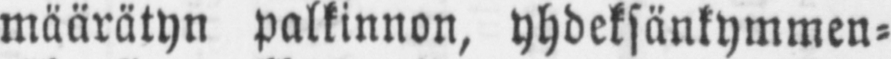määrätyn palkinnon, yhdeksänkymmen-
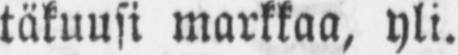täkuusi markkaa, yli.
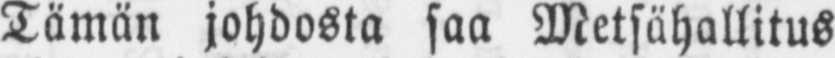Tämän johdosta saa Metsähallitus
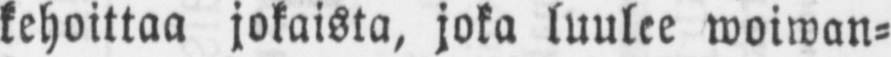kehoittaa jokaista, joka luulee woiwan-
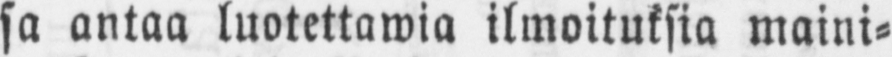sa antaa luotettawia ilmoituksia maini-
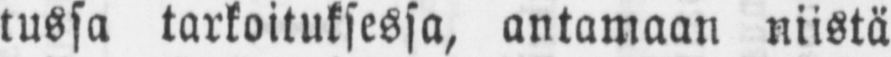tussa tarkoituksessa, antamaan niistä
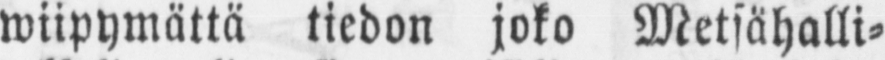wiipymättä tiedon joko Metsähalli-
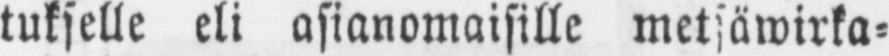tukselle eli asianomaisille metsäwirka-
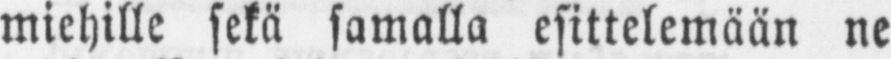miehille sekä samalla esittelemään ne
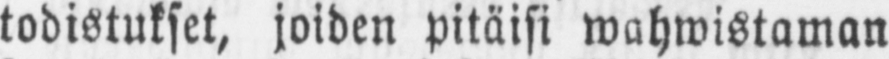todistukset, joiden pitäisi wahwistaman
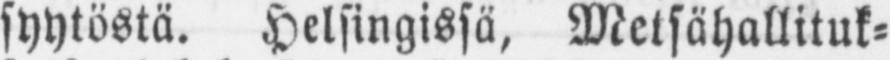syytöstä. Helsingissä, Metsähallituk-
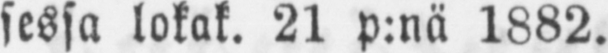sessa lokak. 21 p:nä 1882.
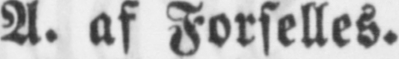A. af Forselles.
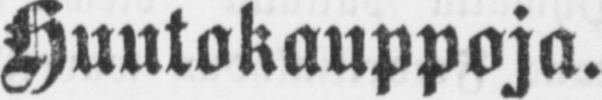Huutokauppoja.
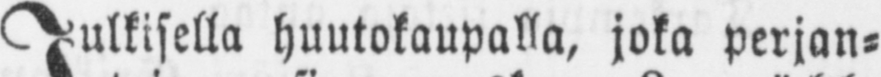Julkisella huutokaupalla, joka perian-
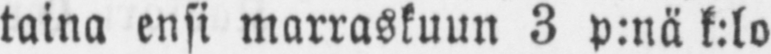taina ensi marraskuun 3 p:nä k:lo
